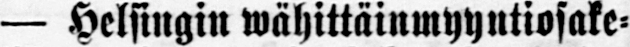— Helsingin wähittäinmyyntiosake-
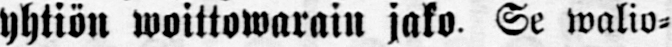yhtiön woittowarain jako. Se walio-
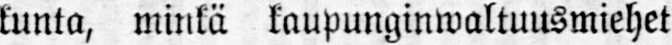kunta, minkä kaupunginwaltuussmiehet
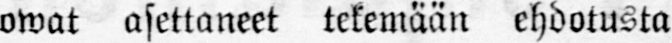owat asettaneet tekemään ehdotusta
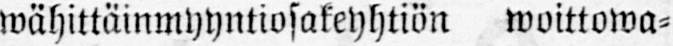wähittäinmyyntiosakeyhtiön woittowa-
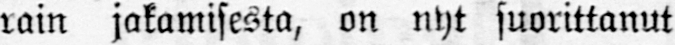rain jakamisesta, on nyt suorittanut
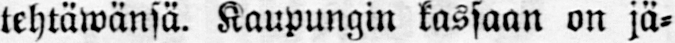tehtäwänsä. Kaupungin kassaan on jä-
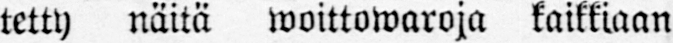tetty näitä woittowaroja kaikkiaan
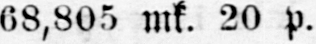68,805 mk. 20 p.
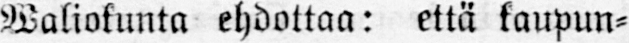Waliokunta ehdottaa: että kaupun-
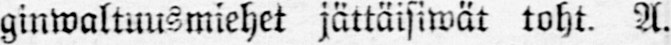ginwaltuusmiehet jättäisiwät toht. A.
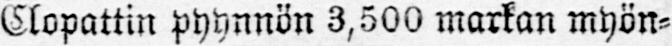Clopattin pyynnön 3,500 markan myön-
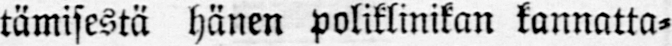tämisestä hänen poliklinikan kannatta-
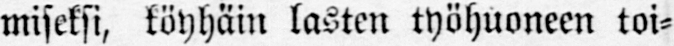miseksi, köyhäin lasten työhuoneen toi-
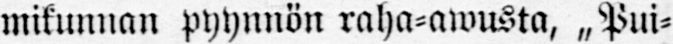mikunnan pyynnön raha-awusta, „Pui-
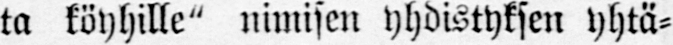ta köyhille" nimisen yhdistyksen yhtä-
